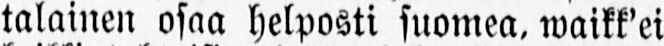talainen osaa helposti suomea, waikk'ei
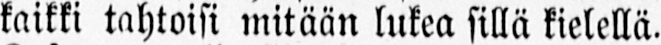kaikki tahtoisi mitään lukea sillä kielellä.
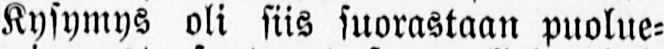Kysymys oli siis suorastaan puolue-
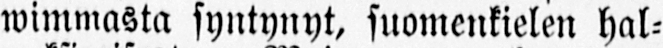wimmasta syntynyt, suomenkielen hal-
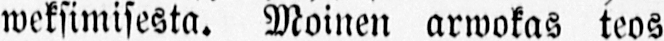weksimisesta. Moinen arwokas teos
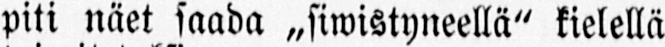piti näet saada ˶siwistyneellä" kielellä
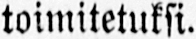toimitetuksi.
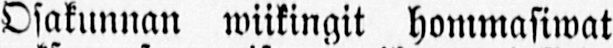Osakunnan wiikingit hommasiwat
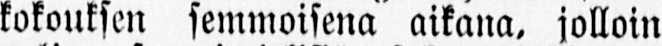kokouksen semmoisena aikana, jolloin
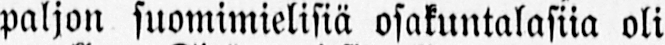paljon suomimielisiä osakuntalasiia oli
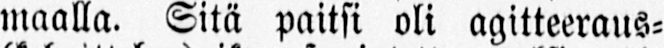maalla. Sitä paitsi oli agitteeraus-
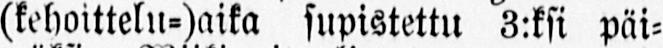(kehoittelu-)aika supistettu 3:ksi päi-
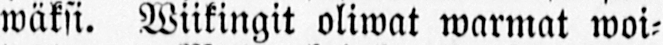wäksi. Wiikingit oliwat warmat woi-
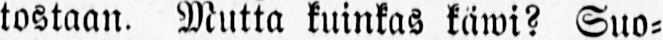tostaan. Mutta kuinkas käwi? Suo-
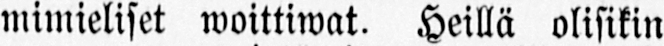mimieliset woittiwat. Heillä olisikin
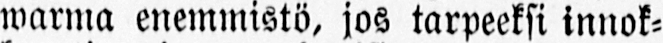warma enemmistö, jos tarpeeksi inno-
